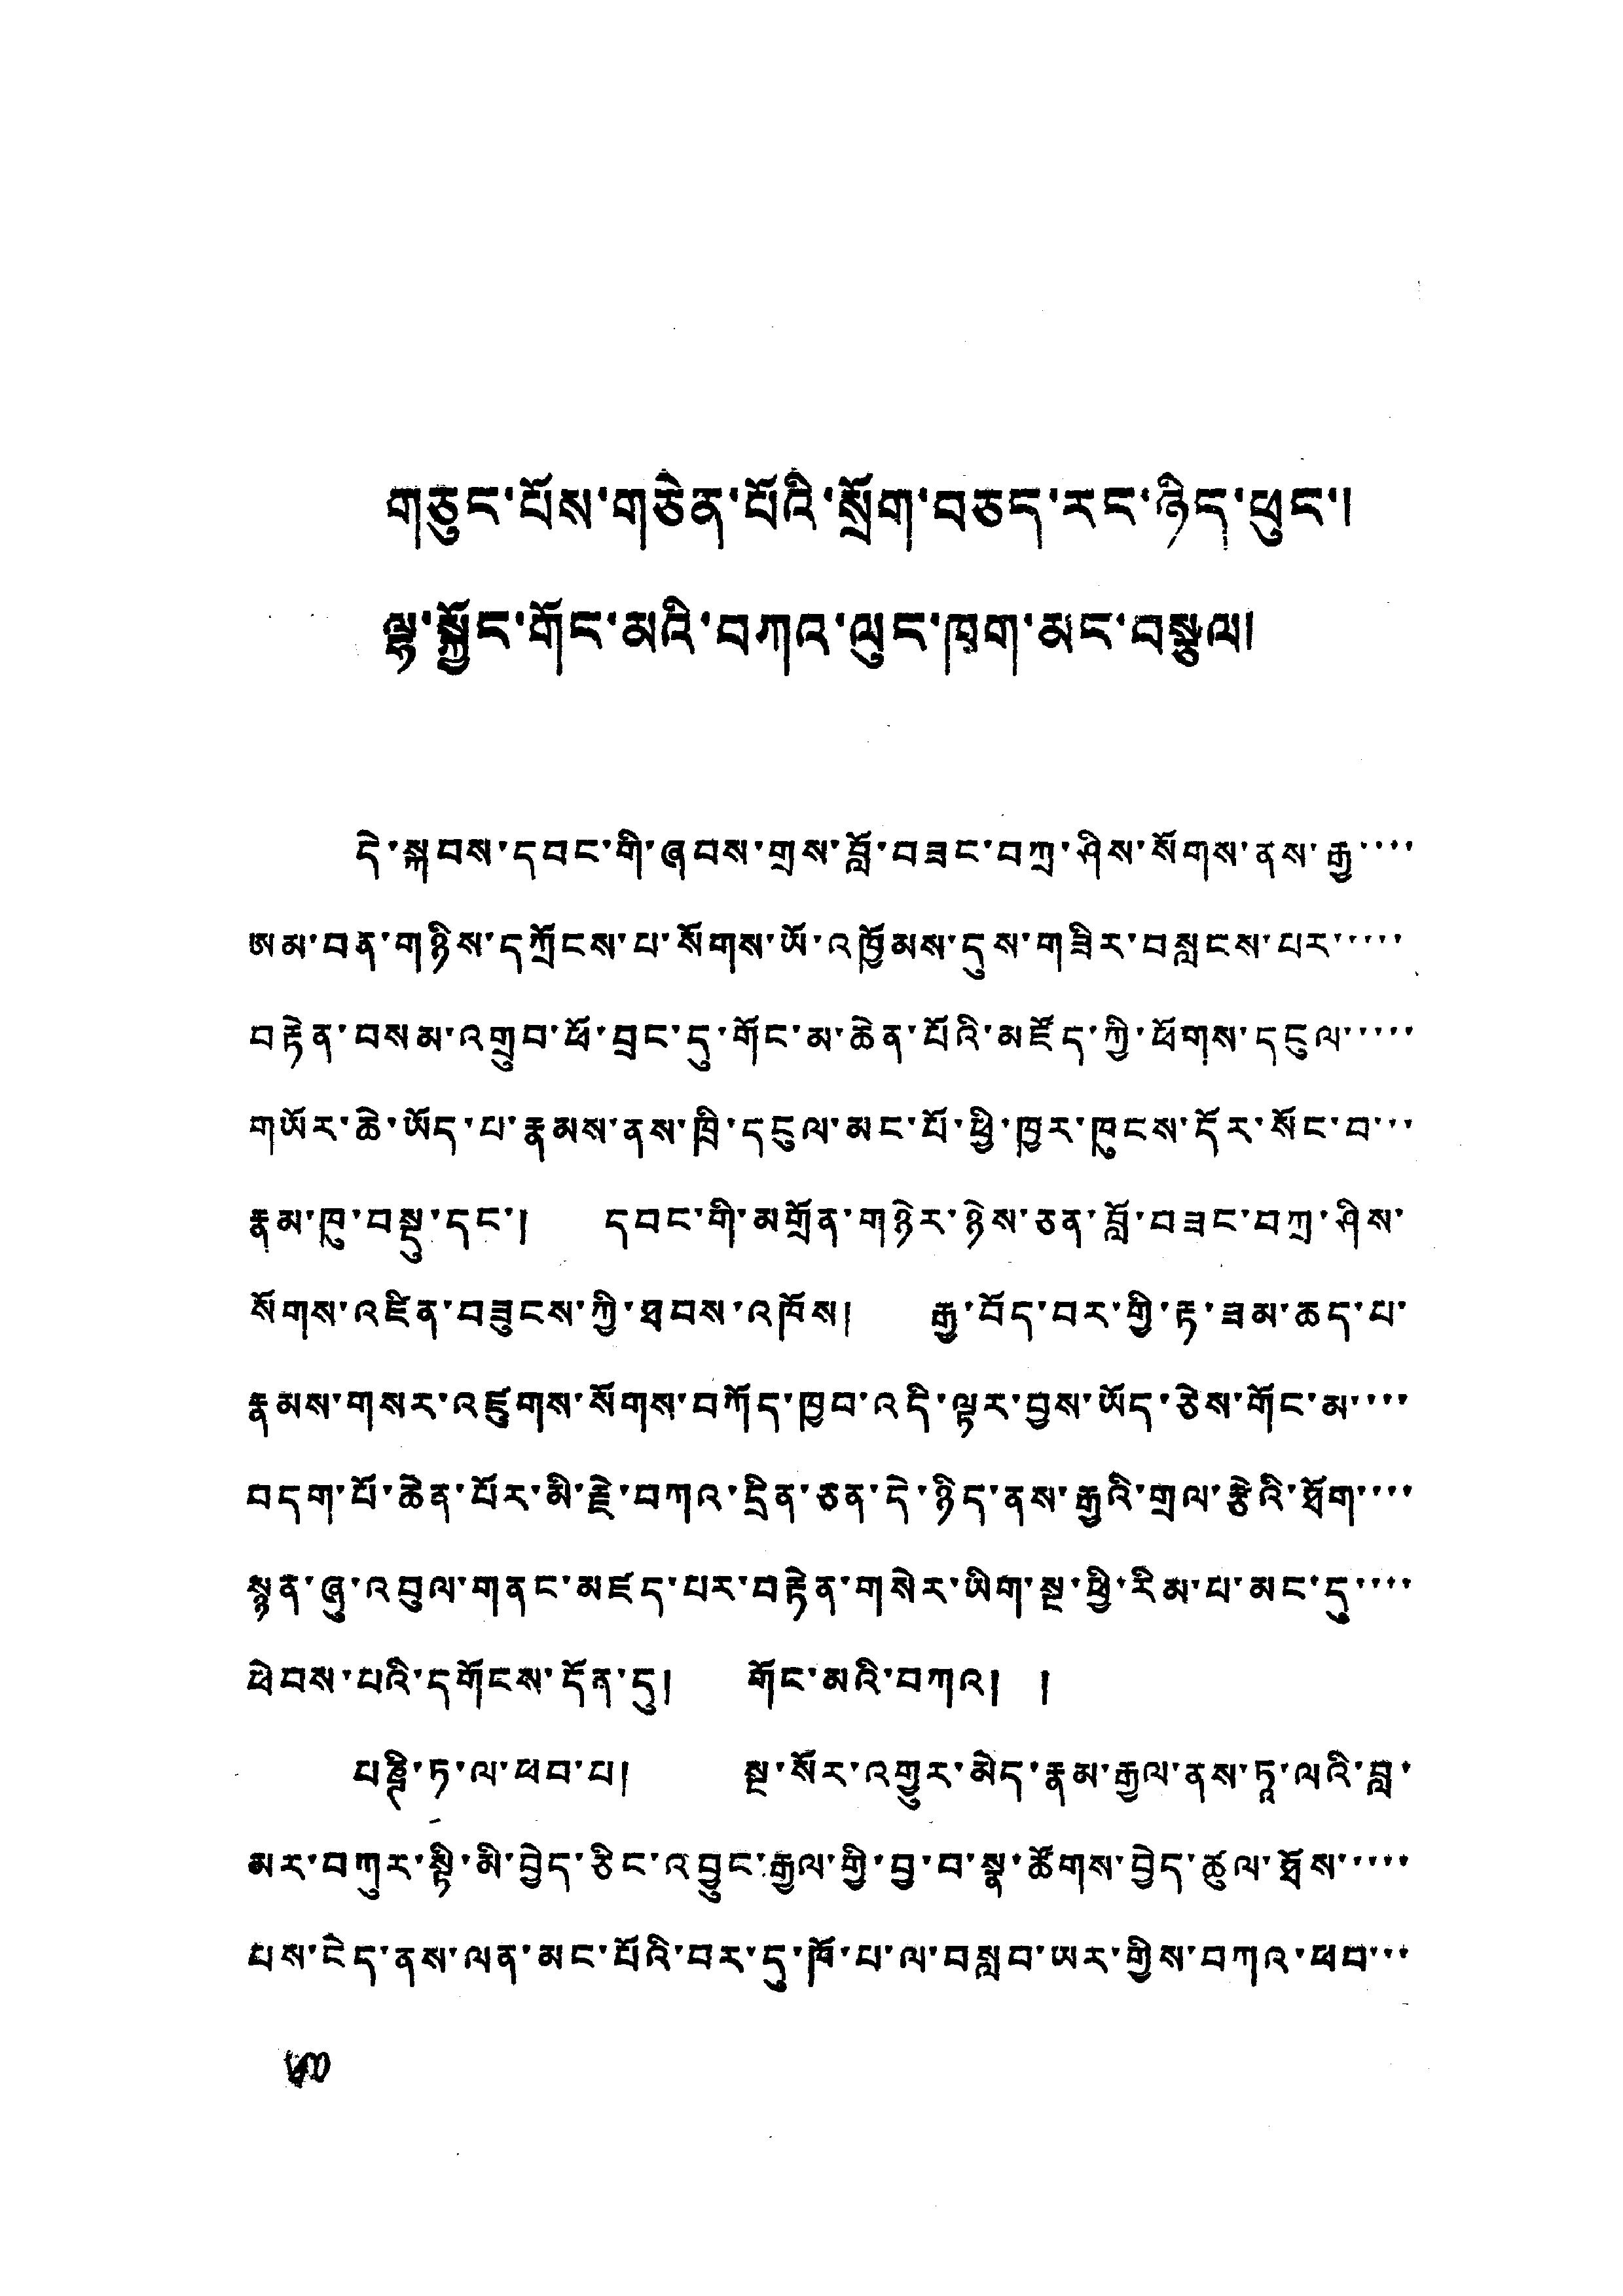གཅུང་པོས་གཅེན་པོའི་སྲོག་བཅད་རང་ཉིད་ཕུང་།
ལྷ་སྐྱོང་གོང་མའི་བཀའ་ལུང་ཁག་མང་བསྩལ།
དེ་སྐབས་དབང་གི་ཞབས་གྲས་བློ་བཟང་བཀྲ་ཤིས་སོགས་ནས་རྒྱ་་་་
ཨམ་བན་གཉིས་དཀྲོངས་པ་སོགས་ཡོ་འཁྱོམས་དུས་གཟིར་བསླངས་པར་་་་་
བརྟེན་བསམ་འགྲུབ་ཕོ་བྲང་དུ་གོང་མ་ཆེན་པོའི་མཛོད་ཀྱི་ཕོགས་དངུལ་་་་་
གཡོར་ཆེ་ཡོད་པ་རྣམས་ནས་ཁྲི་དངུལ་མང་པོ་ཕྱི་ཁྱར་ཁུངས་དོར་སོང་བ་་་
རྣམ་ཁུ་བསྡུ་དང་། དབང་གི་མགྲོན་གཉེར་ཉེས་ཅན་བློ་བཟང་བཀྲ་ཤིས་
སོགས་འཛིན་བཟུངས་ཀྱི་ཐབས་འཁོས། རྒྱ་བོད་བར་གྱི་རྟ་ཟམ་ཆད་པ་
རྣམས་གསར་འཛུགས་སོགས་བཀོད་ཁྱབ་འདི་ལྟར་བྱས་ཡོད་ཅེས་གོང་མ་་་་
བདག་པོ་ཆེན་པོར་མི་རྗེ་བཀའ་དྲིན་ཅན་དེ་ཉིད་ནས་རྒྱའི་གྲལ་རྩེའི་ཐོག་་་་
སྙན་ཞུ་འབུལ་གནང་མཛད་པར་བརྟེན་གསེར་ཡིག་སྔ་ཕྱི་རིམ་པ་མང་དུ་་་་
ཕེབས་པའི་དགོངས་དོན་དུ། གོང་མའི་བཀའ། །
པཎྚི་ཏ་ལ་ཕབ་པ། སྔ་སོར་འགྱུར་མེད་རྣམ་རྒྱལ་ནས་ཏཱ་ལའི་བླ་
མར་བཀུར་སྟི་མི་བྱེད་ཅིང་འབྱུང་རྒྱལ་གྱི་བྱ་བ་སྣ་ཚོགས་བྱེད་ཚུལ་ཐོས་་་་་
པས་ངེད་ནས་ལན་མང་པོའི་བར་དུ་ཁོ་པ་ལ་བསླབ་ཡར་གྱིས་བཀའ་ཕབ་་་
40
